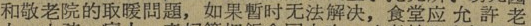和敬老院的取暖問題，如果暫时无法解决，食堂应 允 許 老
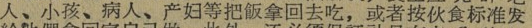人、小孩、病人、产妇等把飯拿回去吃，或者按伙食标准发
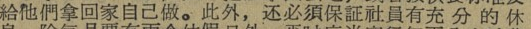給他們拿回家自己做。此外，还必須保証社員有充 分 的 休
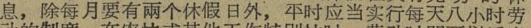息，除每月要有兩个休假日外，平时应当实行每天八小时劳
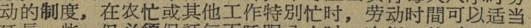动的制度，在农忙或其他工作特別忙时，劳动时間可以适当
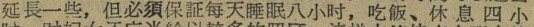延長一些，但必須保証每天睡眠八小时，吃飯、休 息 四 小
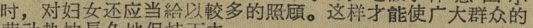时，对妇女还应当給以較多的照顾。这样才能使广大群众的
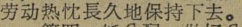劳动热忱長久地保持下去。
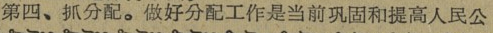第四、抓分配。做好分配工作是当前巩固和提高人民公
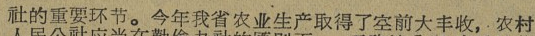社的重要环节。今年我省农业生产去得到空前大丰收，农村
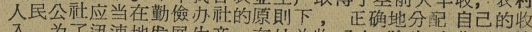人民公社应当在勤儉办社的原則下，正确地分配 自己的收
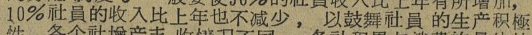10％社員的收入比上年也不减少，以鼓舞社員 的生产积极
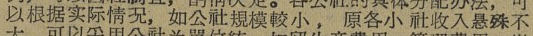以根据实际情况，如公社規模較小，原各小 社收入悬殊不
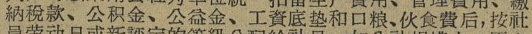納稅款、公积金、公益金、工資底垫和口粮、伙食費后，按社
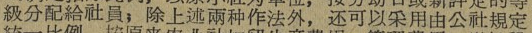級分配給社員；除上述兩种作法外，还可以采用由公社規定
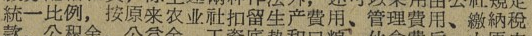統一比例，按原来农业社扣留生产費用、管理費用、繳納稅
